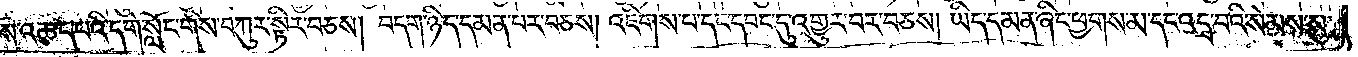ཆོས་འཆད་པའི་དགེ་སློང་གིས་བཀུར་སྟིར་བཅས། བདག་ཉིད་དམན་པར་བཅས། འཇིགས་པ་དང་དབང་དུ་འགྱུར་བར་བཅས། ཡིད་དམན་ཞིང་ཕྱགས་མ་དང་འདྲ་བའི་སེམས་སུ་
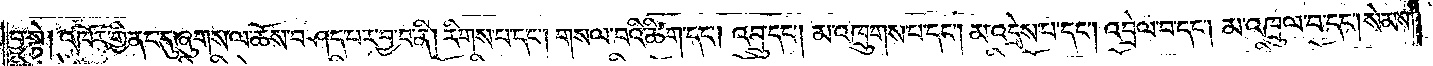བྱ་སྟེ། འཁོར་གྱི་ནང་དུ་ཞུགས་ལ་ཆོས་བཤད་པར་བྱ་བ་ནི། རིགས་པ་དང༌། གསལ་བའི་ཚིག་དང༌། འབྲུ་དང༌། མ་འཁྲུགས་པ་དང༌། མ་འདྲེས་པ་དང༌། འབྲེལ་བ་དང༌། མ་འཁྲུགས་པ་དང༌། སེམས་
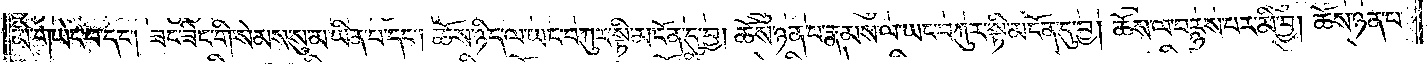མི་གཡེང་བ་དང༌། ཟང་ཟིང་གི་སེམས་སུ་མ་ཡིན་པ་དང༌། ཆོས་ཉིད་ལ་ཡང་བཀུར་སྟི་མངོན་དུ་བྱ། ཆོས་ཉན་པ་རྣམས་ལ་ཡང་བཀུར་སྟི་མངོན་དུ་བྱ། ཆོས་ལ་བརྙས་པར་མི་བྱ། ཆོས་ཉན་པ་
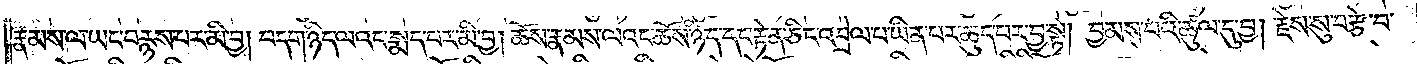རྣམས་ལ་ཡང་བརྙས་པར་མི་བྱ། བདག་ཉིད་ལའང་སྨད་པར་མི་བྱ། ཆོས་རྣམས་ལའང་ཆོས་ཉིད་དང་རྟེན་ཅིང་འབྲེལ་བ་ཡིན་པར་ཆུད་པར་བྱ་སྟེ། བྱམས་པའི་ཚུལ་དུ་བྱ། རྗེས་སུ་བརྩེ་བ་
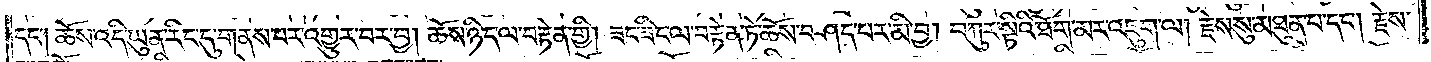དང༌། ཆོས་འདི་ཡུན་རིང་དུ་གནས་པར་འགྱུར་བར་བྱ། ཆོས་ཉིད་ལ་བརྟེན་གྱི། ཟང་ཟིང་ལ་བརྟེན་ཏེ་ཆོས་བཤད་པར་མི་བྱ། བཀུར་སྟིའི་ཐོག་མར་འཇུག་ལ། རྗེས་སུ་མཐུན་པ་དང༌། རྗེས་
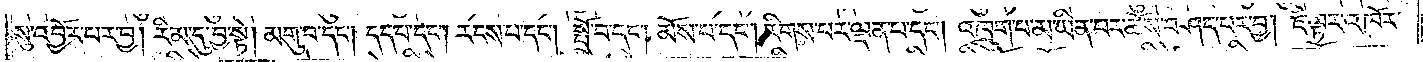སུ་འབྱོར་པར་བྱ། རིམ་དུ་བྱ་སྟེ། མགུ་བ་དང༌། དད་པ་དང༌། རངས་པ་དང༌། སྤྲོ་བ་དང༌། མོས་པ་དང༌། རིགས་པར་ལྡན་པ་དང༌། འཁྲུག་པ་མ་ཡིན་པར་ཆོས་བཤད་པར་བྱ། ཇི་ལྟར་འཁོར་
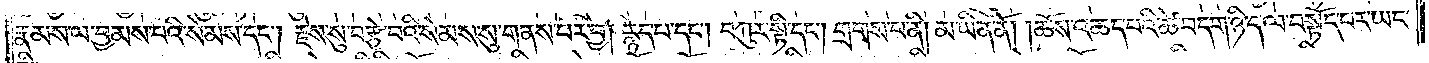རྣམས་ལ་བྱམས་པའི་སེམས་དང༌། རྗེས་སུ་བརྩེ་བའི་སེམས་སུ་གནས་པར་བྱ། རྙེད་པ་དང༌། བཀུར་སྟི་དང༌། གྲགས་པ་ནི། མ་ཡིན་ནོ། །ཆོས་འཆད་པའི་ཚེ་བདག་ཉིད་ལ་བསྟོད་པར་ཡང་
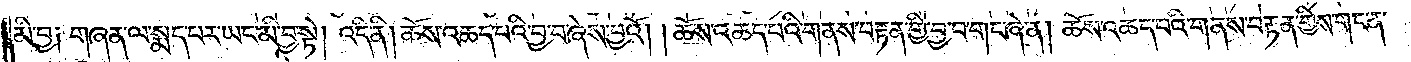མི་བྱ། གཞན་ལ་སྨད་པར་ཡང་མི་བྱ་སྟེ། འདི་ནི། ཆོས་འཆད་པའི་བྱ་བ་ཞེས་བྱའོ། །ཆོས་འཆད་པའི་གནས་བརྟན་གྱི་བྱ་བ་གང་ཞེ་ན། ཆོས་འཆད་པའི་གནས་བརྟན་གྱིས་གང་ན་
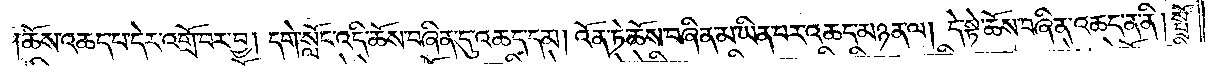ཆོས་འཆད་པ་དེར་འགྲོ་བར་བྱ། དགེ་སློང་འདི་ཆོས་བཞིན་དུ་འཆད་དམ། འོན་ཏེ་ཆོས་བཞིན་མ་ཡིན་པར་འཆད་མཉན་ལ། དེ་སྟེ་ཆོས་བཞིན་འཆད་ན་ནི། སྤྲོ་
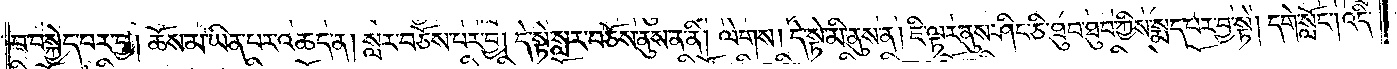བ་བསྐྱེད་པར་བྱ། ཆོས་མ་ཡིན་པར་འཆད་ན། སླར་བཅོས་པར་བྱ། དེ་སྟེ་སླར་བཅོས་ནུས་ན་ནི། ལེགས། དེ་སྟེ་མི་ནུས་ན། ཇི་ལྟར་ནུས་ཤིང་ཅི་ཐུབ་ཐུབ་ཀྱིས་སྨད་པར་བྱ་སྟེ། དགེ་སློང༌། འདི་
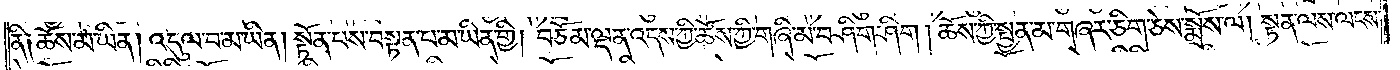ནི༑ ཆོས་མ་ཡིན། འདུལ་བ་མ་ཡིན། སྟོན་པས་བསྟན་པ་མ་ཡིན་གྱི། བཅོམ་ལྡན་འདས་ཀྱི་ཆོས་ཀྱི་གཞི་མ་བཤིག་ཤིག །ཆོས་ཀྱི་སྤྱན་མ་གཞར་ཅིག་ཅེས་སྨྲོས་ལ། སྟན་ལས་ལངས་
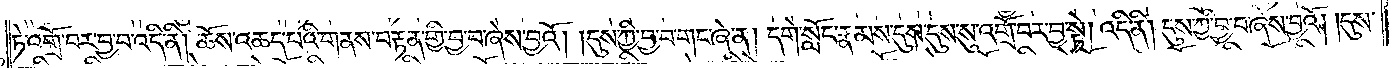ཏེ་འགྲོ་བར་བྱ་བ་འདི་ནི། ཆོས་འཆད་པའི་གནས་བརྟན་གྱི་བྱ་བ་ཞེས་བྱའོ། །དུས་ཀྱི་བྱ་བ་གང་ཞེ་ན། དགེ་སློང་རྣམས་དུས་དུས་སུ་འགྲོ་བར་བྱ་སྟེ། འདི་ནི། དུས་ཀྱི་བྱ་བ་ཞེས་བྱའོ། །དུས་
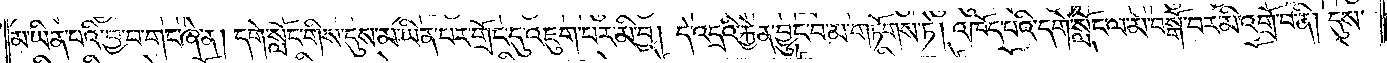མ་ཡིན་པའི་བྱ་བ་གང་ཞེ་ན། དགེ་སློང་གིས་དུས་མ་ཡིན་པར་གྲོང་དུ་འཇུག་པར་མི་བྱ། དེ་འདྲའི་རྐྱེན་བྱུང་བ་མ་གཏོགས་ཏེ། འཁོད་པའི་དགེ་སློང་ལ་མ་བསྒོ་བར་མི་འགྲོ་བ་ནི། དུས་
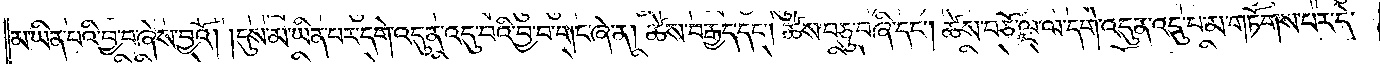མ་ཡིན་པའི་བྱ་བ་ཞེས་བྱའོ། །དུས་མ་ཡིན་པར་དགེ་འདུན་འདུ་བའི་བྱ་བ་གང་ཞེ་ན། ཚེས་བརྒྱད་དང༌། ཚེས་བཅུ་བཞི་དང༌། ཚེས་བཅོ་ལྔ་ལ་དགེ་འདུན་འདུ་བ་མ་གཏོགས་པར་དེ་
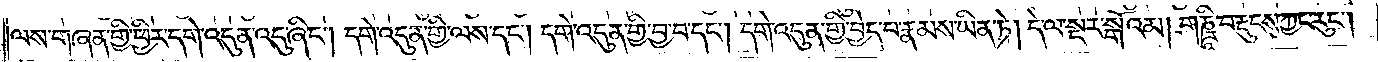ལས་གཞན་གྱི་ཕྱིར་དགེ་འདུན་འདུ་ཞིང༌། དགེ་འདུན་གྱི་ལས་དང༌། དགེ་འདུན་གྱི་བྱ་བ་དང༌། དགེ་འདུན་གྱི་བྱེད་པ་རྣམས་ཡིན་ཏེ། དེ་ལ་སྔར་སྒོའམ། གཎྜཱི་བརྡུངས་ཀྱང་རུང༌།
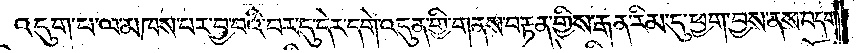འདུག་པ་ལ་མཁས་པར་བྱ་བའི་བར་དུ་དེར་དགེ་འདུན་གྱི་གནས་བརྟན་གྱིས་རྒན་རིམ་དུ་ཕྱག་བྱས་ནས་བདག་
